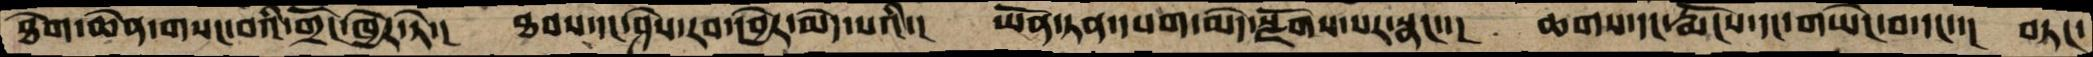ཐེག་ཆེན་གསང་བའི་གྲོང་ཁྱེར་ཏེ་།   ཐབས་དང་ཤེས་རབ་དབྱེར་མེད་པའི་།   ཡོན་ཏན་དཔག་མེད་སྫོགས་པར་སྣང་་།   ཆགས་དང་རྨོངས་དང་གཡེང་བ་དང་་།  བཏང་
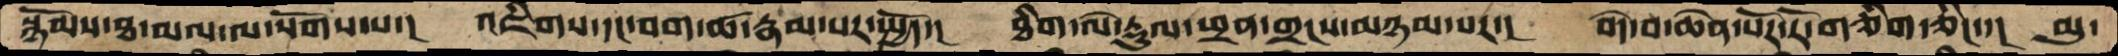སྙོམས་ཐ་མལ་ལ་སོགས་པ་།   འཇིགས་དང་བག་ཚ་རྣམ་པར་སྤྱོད་།    ཐིག་ལེ་རྡུལ་ཕྲན་གྲངས་མཉམ་པར་།   བདེ་བ་ཆེན་པོར་རོ་གཅིག་ཅིང་།  མུ་
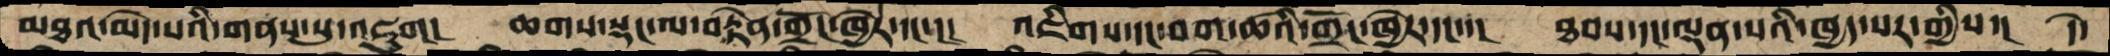མཐའ་མེད་པའི་གནས་སུ་འཇུག།   ཆགས་སྡང་ལ་བརྟེན་གྲོང་ཁྱེར་དང་།།།    འཇིགས་དང་བག་ཚའི་གྲོང་ཁྱེར་དང་་།   ཐབས་དང་ལྡན་པའི་ཁྱད་པར་གྱིས་།   དེ་
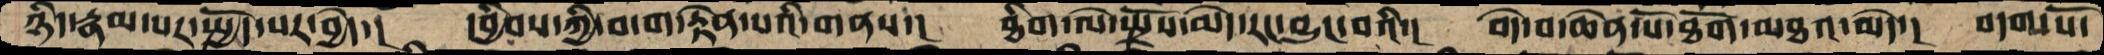ཉིད་རྣམ་པར་སྤྱོད་པར་བྱེད་།    དབྱིབས་ཀྱི་བ་ག་རྟེན་པའི་གནས་།   ཐིག་ལེ་སྤྲོས་མེད་རང་བྱུང་བའི་།   བདེ་བ་ཆེན་པོ་ཐོག་མཐའ་མེད་།   བདག་པོ་
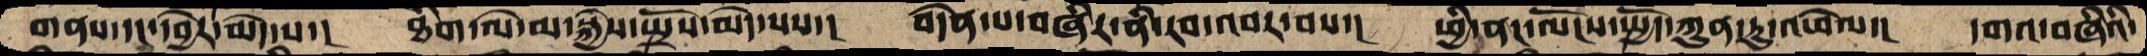གནས་དང་དབྱེར་མེད་པ་།   ཐིག་ལེ་མ་སྐྱེས་སྤྲོས་མེད་པས་།   བདེན་པ་བཞིར་ནི་རབ་འབར་བས་།   ཕྱི་ནང་ལོངས་སྤྱོད་ཀུན་ཏུ་འཕེལ་།   དགའ་བཞིའི་
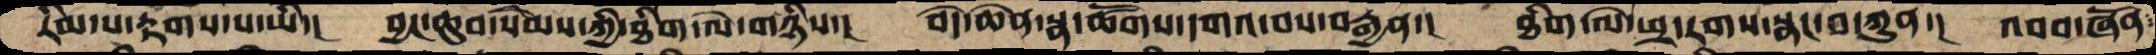རིམ་པ་རྟགས་པ་ཡི་།   བྱང་ཆུབ་སེམས་ཀྱི་ཐིག་ལེ་གཉིས་།   བདེ་ཆེན་སྣ་ཚོགས་དགའ་བས་བརྒྱན་།   ཐིག་ལེ་ཕྲ་རགས་སྣང་བ་ཀུན་།  འབབ་ཞོན༴
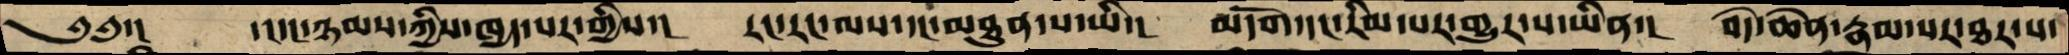༄༅་།      ་།དང་ཉམས་ཀྱིས་ཁྱད་པར་གྱིས་།   རང་རང་ལས་དང་མཐུན་པ་ཡི་།   མདོག་དང་རིམ་པར་གྱུར་པ་ཡིན་།   བདེ་ཆེན་རྣམ་པར་ཐར་པ་
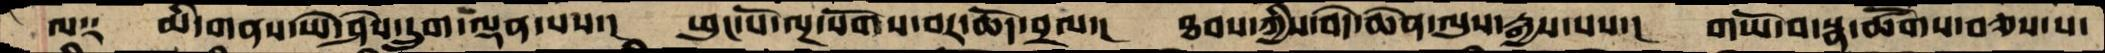ལ༑   མི་གནས་ཡེ་ཤེས་དྲུག་ལྡན་པས་།   ཕུང་པོ་ལྔ་སོགས་བར་ཆོད་བྲལ་།    ཐབས་ཀྱིས་བདེ་ཆེན་ལུས་རྒྱས་པས་།   གཡོ་བ་སྣ་ཚོགས་བཅས་པ་
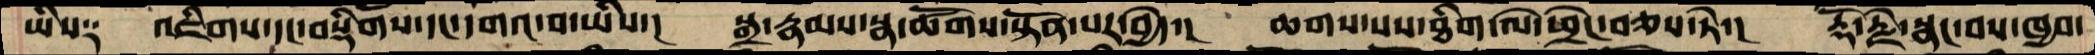ཡིས༑   འཇིགས་དང་བསྡིགས་དང་དགའ་བ་ཡིས་།   སྒྲ་རྣམས་སྣ་ཚོགས་སྟོན་པར་བྱེད་།    ཆགས་པས་ཐིག་ལེ་ཕྲེང་བཅས་ཏེ་།   རྡོ་རྗེ་སྣང་བས་ཁྱབ་
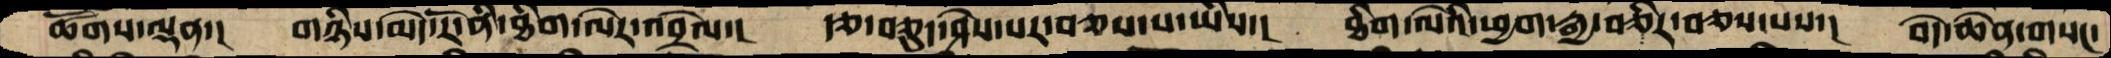ཚོགས་ལྡན་།   གཉིས་མེད་རོ་ནི་ཐིག་ལེར་འབྲེལ་།   རྩ་བཅུད་ཤེས་པར་བཅས་པ་ཡིས་།   ཐིག་ལེའི་ཕྱག་རྒྱ་བཅིར་བཅས་པས་།   བདེ་ཆེན་གསང་
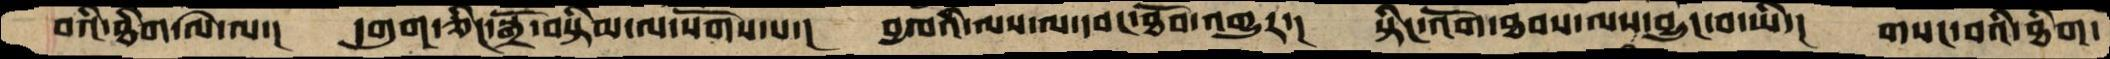བའི་ཐིག་ལེ་ལ་།   དགུག་ཅིང་སྒྲོ་བསྟིམ་ལ་སོགས་པ་།   བྱ་བའི་ལས་ལ་དབང་ཐོབ་འགྱུར་།    སྟིང་འོག་ཐབས་ལས་བྱུང་བ་ཡི་།   གསང་བའི་ཐིག་
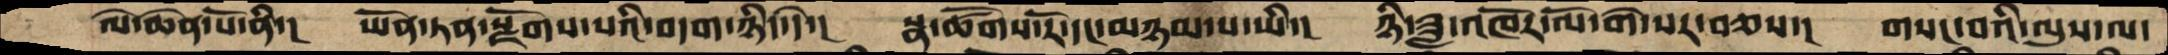ལེ་ཆེན་པོ་ནི་།  ཡོན་ཏན་སྫོགས་པའི་བདག་ཉིད་དེ་།   སྣ་ཚོགས་རོ་དང་མཉམ་པ་ཡི་།   ཉི་ཟླ་འཁོར་ལོ་གེ་སར་བཅས་།  གསང་བའི་ལུས་ལ་
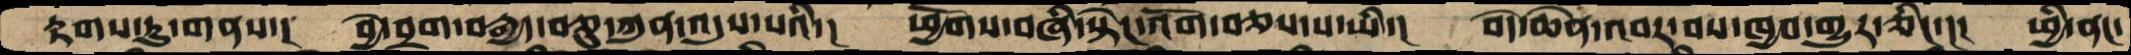རྟགས་ཏུ་གནས་།  བྱེ་བྲག་བརྒྱད་བཅུ་ཀུན་འདུས་པའི་།   ཕྱོགས་བཞི་སྟེང་འོག་བཅས་པ་ཡི་།   བདེ་ཆེན་འབར་བས་ཁྱབ་གྱུར་ཅིང་།།།   ཕྱི་ནང་
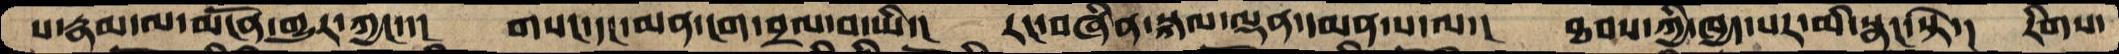པ་རྣམ་ལ་མངོན་གྱུར་ཀྱང་་།   གསང་དང་མན་ངག་བྲལ་བ་ཡི་།  རང་བཞིན་སྐལ་ལྡན་དམན་པ་ལ་།   ཐབས་ཀྱི་ཁྱད་པར་མི་སྣང་སྟེ་།  རིགས་
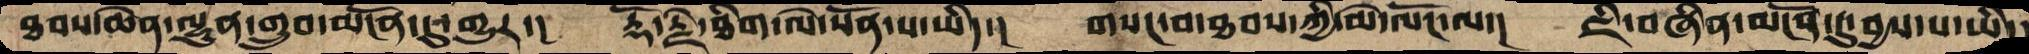ཐབས་ཆེན་ལྷུན་གྲུབ་མངོན་དུ་གྱུར་།  རྡོ་རྗེ་ཐིག་ལེ་སོན་པ་ཡིད་།  གསང་བ་ཐབས་ཀྱི་མེ་ལོང་ལ་།  ཇི་བཞིན་མངོན་དུ་བྱས་པ་ཡི་།
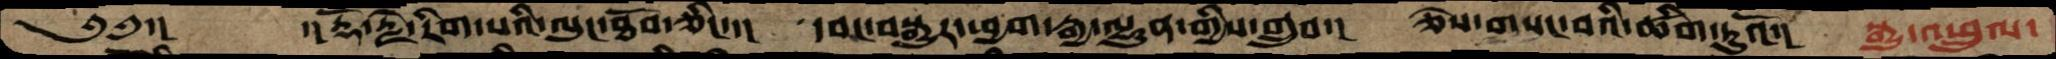༄༅་།    ་།རྡོ་རྗེ་རིག་པའི་ལུང་ཐོབ་ཅིང་་།  དབང་བསྒྱུར་ཕྱག་རྒྱ་ལྷུན་གྱིས་གྲུབ་།  ཅེས་གསང་བའི་ཚིག་ཏུའོ་།  སྒྱུ་འཕྲུལ་
